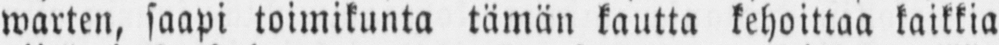warten, saapi toimikunta tämän kautta kehoittaa kaikkia
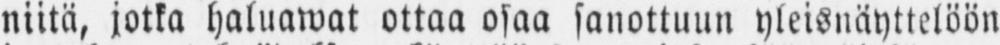niitä, jotka haluawat ottaa osaa sanottuun yleisnäyttelöön
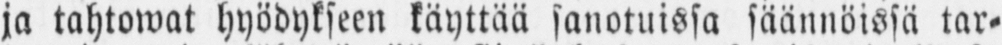ja tahtowat hyödykseen käyttää sanotuissa säännöissä tar-
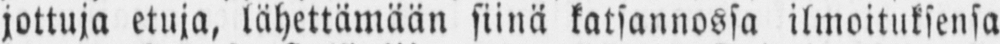jottuja etuja, lähettämään siinä katsannossa ilmoituksensa
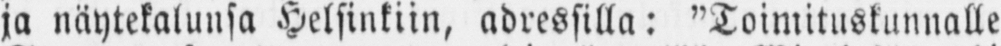ja näytekalunsa Helsinkiin, adressilla: ”Toimituskunnalle
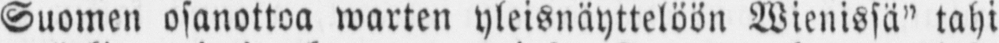Suomen osanottoa warten yleisnäyttelöön Wienissä” tahi
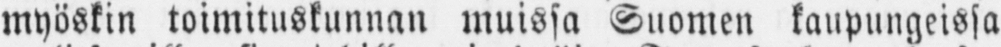myöskin toimituskunnan muissa Suomen kaupungeissa
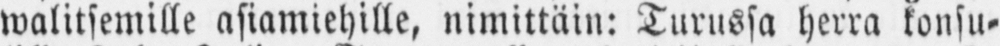walitsemille asiamiehille, nimittäin: Turussa herra konsu-
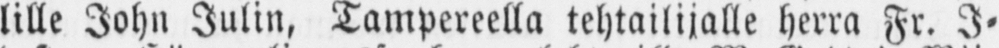lille John Julin, Tampereella tehtailijalle herra Fr. I-
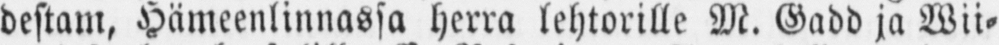destam, Hämeenlinnassa herra lehtorille M. Gadd ja Wii-
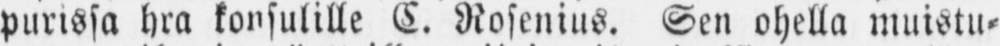purissa hra konsulille C. Rosenius. Sen ohella muistu-
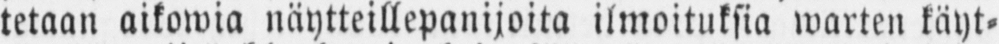tetaan aikowia näytteillepanijoita ilmoituksia warten käyt-
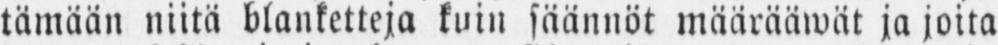tämään niitä blanketteja kuin säännöt määrääwät ja joita
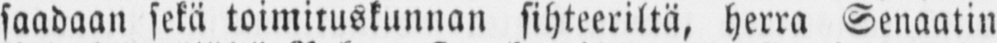saadaan sekä toimituskunnan sihteeriltä, herra Senaatin
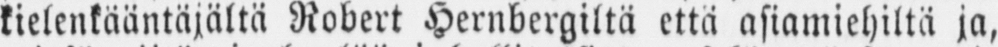kielenkääntäjältä Robert Hernbergiltä että asiamiehiltä ja,
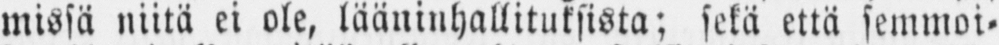missä niitä ei ole, lääninhallituksista; sekä että semmoi-
